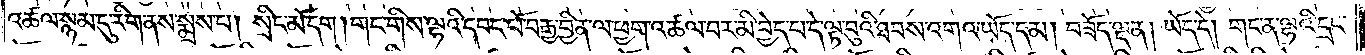འཚལ་སྙམ་དུ་རིག་ནས་སྨྲས་པ། སྲིང་མོ་དག །གང་གིས་ལྷའི་དབང་པོ་བརྒྱ་བྱིན་ལ་ཕྱག་འཚལ་བར་མི་བྱེད་པ་དེ་ལྟ་བུའི་ཐབས་འགའ་ཡོད་དམ། བཟོད་ལྡན། ཡོད་དེ། གང་ན་ལྷའི་དྲང་
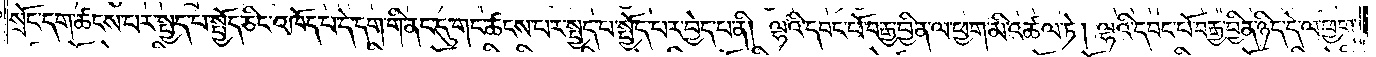སྲོང་དག་ཚངས་པར་སྤྱད་པ་སྤྱོད་ཅིང་འཁོད་པ་དེ་དག་གི་ནང་དུ་གང་ཚངས་པར་སྤྱད་པ་སྤྱོད་པར་བྱེད་པ་ནི། ལྷའི་དབང་པོ་བརྒྱ་བྱིན་ལ་ཕྱག་མི་འཚལ་ཏེ། ལྷའི་དབང་པོ་བརྒྱ་བྱིན་ཉིད་དེ་ལ་ཕྱག་
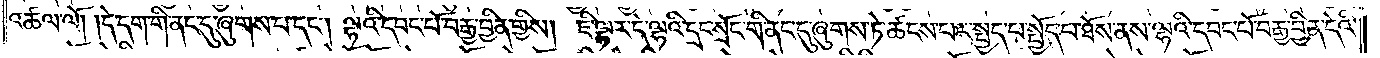འཚལ་ལོ། །དེ་དག་གི་ནང་དུ་ཞུགས་པ་དང༌། ལྷའི་དབང་པོ་བརྒྱ་བྱིན་གྱིས། ཇི་ལྟར་དེ་ལྷའི་དྲང་སྲོང་གི་ནང་དུ་ཞུགས་ཏེ་ཚངས་པར་སྤྱད་པ་སྤྱོད་པ་ཐོས་ནས་ལྷའི་དབང་པོ་བརྒྱ་བྱིན་དེའི་
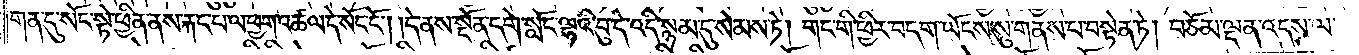གན་དུ་སོང་སྟེ་ཕྱིན་ནས་རྐང་པ་ལ་ཕྱག་འཚལ་དེ་སོང་ངོ༌། །དེ་ནས་སྔོན་དགེ་སློང་ལྷའི་བུ་དེ་འདི་སྙམ་དུ་སེམས་ཏེ། གང་གི་ཕྱིར་བདག་ཡོངས་སུ་གནས་པ་བསྟེན་ཏེ། བཅོམ་ལྡན་འདས་ལ་
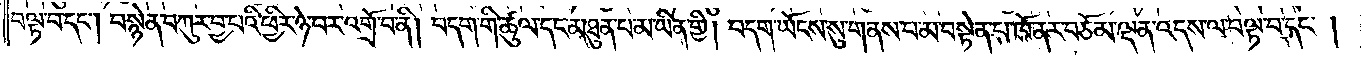བལྟ་བ་དང༌། བསྙེན་བཀུར་བྱ་བའི་ཕྱིར་ཉེ་བར་འགྲོ་བ་ནི། བདག་གི་ཚུལ་དང་མཐུན་པ་མ་ཡིན་གྱི། བདག་ཡོངས་སུ་གནས་པ་མ་བསྟེན་པ་ཁོ་ནར་བཅོམ་ལྡན་འདས་ལ་བལྟ་བ་དང༌།
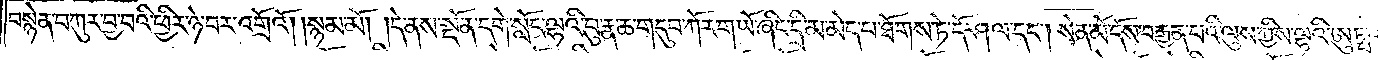བསྙེན་བཀུར་བྱ་བའི་ཕྱིར་ཉེ་བར་འགྲོའོ། །སྙམ་མོ། །དེ་ནས་སྔོན་དགེ་སློང་ལྷའི་བུ་རྣ་ཆ་གདུབ་ཀོར་གཡོ་ཞིང་དྲི་མ་མེད་པ་ཐོགས་ཏེ་དོ་ཤལ་དང༌། སེན་མོ་དོས་བརྒྱན་པའི་ལུས་ཀྱིས་ལྷའི་ཨུཏྤ་ལ་
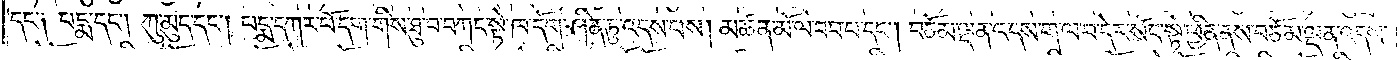དང་༑ པདྨ་དང༌། ཀུ་མུད་དང༌། པདྨ་དཀར་པོ་དག་གིས་ཐུབ་བཀང་སྟེ་ཁ་དོག་ཤིན་ཏུ་འདས་པས། མཚན་མོ་ལ་བབ་པ་དང༌། བཅོམ་ལྡན་འདས་ག་ལ་བ་དེར་སོང་སྟེ་ཕྱིན་ནས་བཅོམ་ལྡན་འདས་
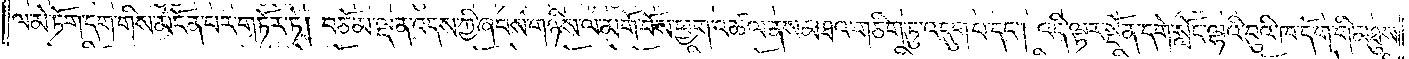ལ་མེ་ཏོག་དག་གིས་མངོན་པར་གཏོར་ཏེ། བཅོམ་ལྡན་འདས་ཀྱི་ཞབས་གཉིས་ལ་མགོ་བོས་ཕྱག་འཚལ་ནས་མཐའ་གཅིག་ཏུ་འདུག་པ་དང༌། འདི་ལྟར་སྔོན་དགེ་སློང་ལྷའི་བུའི་ཁ་དོག་གི་མཐུས་
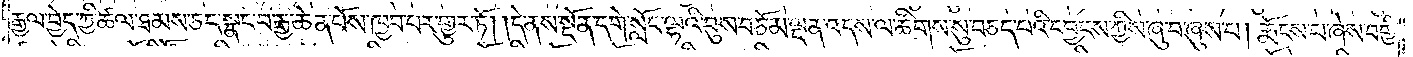རྒྱལ་བྱེད་ཀྱི་ཚལ་ཐམས་ཅད་སྣང་བ་རྒྱ་ཆེན་པོས་ཁྱབ་པར་གྱུར་ཏོ། །དེ་ནས་སྔོན་དགེ་སློང་ལྷའི་བུས་བཅོམ་ལྡན་འདས་ལ་ཚིགས་སུ་བཅད་པའི་དབྱངས་ཀྱིས་ཞུ་བ་ཞུས་པ། རྨོངས་པ་ཞེས་བགྱི་
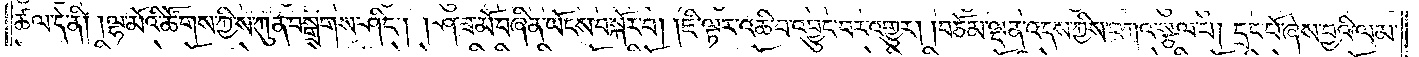ཚལ་དེ་ནི། །ལྷ་མོའི་ཚོགས་ཀྱིས་ཀུན་བསྒྲགས་ཤིང༌། །ཤ་ཟ་མོ་བཞིན་ཡོངས་བསྐོར་བ། །ཇི་ལྟར་འཆི་བ་འབྱུང་བར་འགྱུར། །བཅོམ་ལྡན་འདས་ཀྱིས་བཀའ་སྩལ་པ། དྲང་པོ་ཞེས་བྱའི་ལམ་
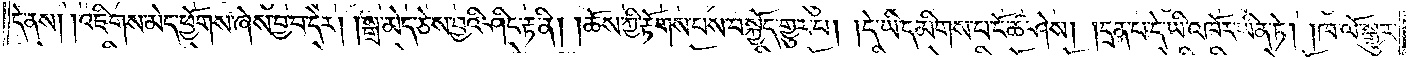དེ་ནས། །འཇིགས་མེད་ཕྱོགས་ཞེས་བྱ་བ་དེར། །སྒྲ་མེད་ཅེས་བྱའི་ཤིང་རྟ་ནི། །ཆོས་ཀྱི་རྟོགས་པས་བསྐྱོད་གྱུར་པ། །དེ་ཡི་དམིགས་པ་ངོ་ཚ་ཤེས། །དྲན་པ་དེ་ཡི་འཁོར་ཡིན་ཏེ། །ཁ་ལོ་སྒྱུར་
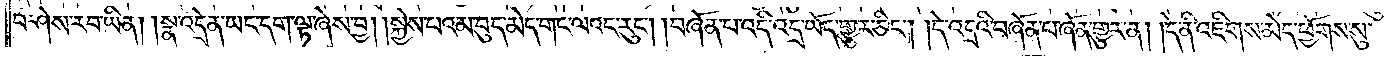བ་ཤེས་རབ་ཡིན། །སྣ་འདྲེན་ཡང་དག་ལྟ་ཞེས་བྱ། །སྐྱེས་པའམ་བུད་མེད་གང་ལའང་རུང༌། །བཞོན་པ་འདི་འདྲ་ཡོད་གྱུར་ཅིང༌། །དེ་འདྲའི་བཞོན་པ་ཞོན་གྱུར་ན། །དེ་ནི་འཇིགས་མེད་ཕྱོགས་སུ་
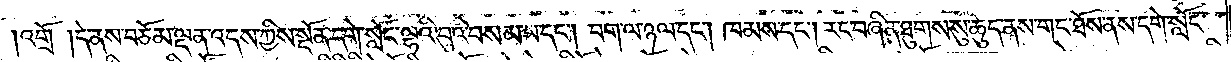འགྲོ།དེ་ནས་བཅོམ་ལྡན་འདས་ཀྱིས་སྔོན་དགེ་སློང་ལྷའི་བུའི་བསམ་པ་དང༌། བག་ལ་ཉལ་དང༌། ཁམས་དང༌། རང་བཞིན་ཐུགས་སུ་ཆུད་ནས་གང་ཐོས་ནས་དགེ་སློང་
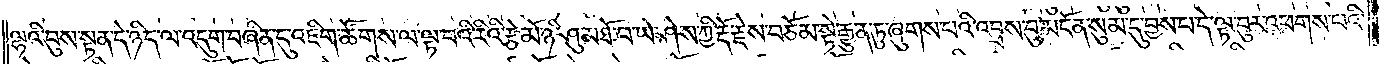ལྷའི་བུས་སྟན་དེ་ཉིད་ལ་འདུག་བཞིན་དུ་འཇིག་ཚོགས་ལ་ལྟ་བའི་རིའི་རྩེ་མོ་ཉི་ཤུ་མཐོ་བ་ཡེ་ཤེས་ཀྱི་རྡོ་རྗེས་བཅོམ་སྟེ་རྒྱུན་ཏུ་ཞུགས་པའི་འབྲས་བུ་མངོན་སུམ་དུ་བྱས་པ་དེ་ལྟ་བུར་འཕགས་པའི་
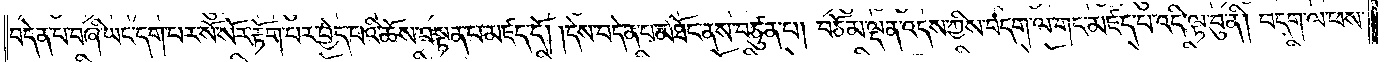བདེན་པ་བཞི་ཡང་དག་པར་སོ་སོར་རྟོག་པར་བྱེད་པའི་ཆོས་བསྟན་པ་མཛད་དོ། །དེས་བདེན་པ་མཐོང་ནས་བཙུན་པ། བཅོམ་ལྡན་འདས་ཀྱིས་བདག་ལ་གང་མཛད་པ་འདི་ལྟ་བུ་ནི། བདག་ལ་ཕས་
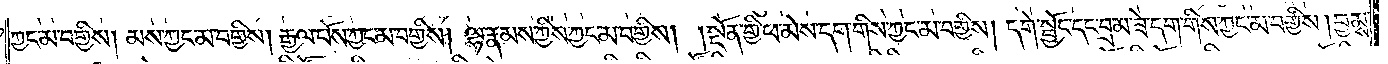ཀྱང་མ་བགྱིས། མས་ཀྱང་མ་བགྱིས། རྒྱལ་པོས་ཀྱང་མ་བགྱིས། ལྷ་རྣམས་ཀྱིས་ཀྱང་མ་བགྱིས། །སྔོན་གྱི་ཕ་མེས་དག་གིས་ཀྱང་མ་བགྱིས། དགེ་སྦྱོང་དང་བྲམ་ཟེ་དག་གིས་ཀྱང་མ་བགྱིས། བྱམས་
